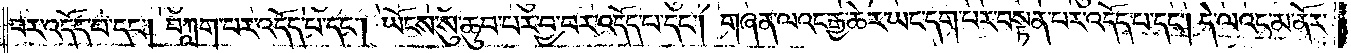བར་འདོད་པ་དང༌། བཀླག་པར་འདོད་པ་དང༌། ཡོངས་སུ་ཆུབ་པར་བྱ་བར་འདོད་པ་དང༌། གཞན་ལའང་རྒྱ་ཆེར་ཡང་དག་པར་བསྟན་པར་འདོད་པ་དང༌། དེ་ལའང་མ་ནོར་
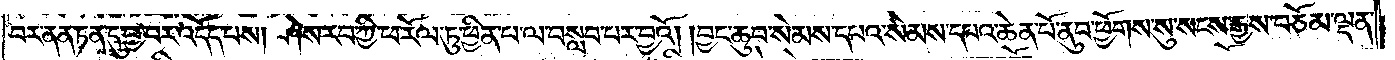བར་ནན་ཏན་དུ་བྱ་བར་འདོད་པས། ཤེས་རབ་ཀྱི་ཕ་རོལ་ཏུ་ཕྱིན་པ་ལ་བསླབ་པར་བྱའོ། །བྱང་ཆུབ་སེམས་དཔའ་སེམས་དཔའ་ཆེན་པོ་ནུབ་ཕྱོགས་སུ་སངས་རྒྱས་བཅོམ་ལྡན་
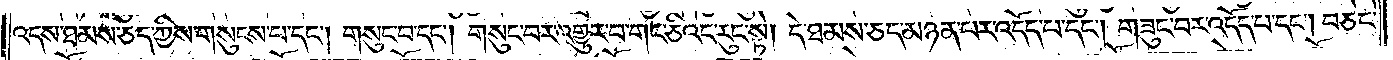འདས་ཐམས་ཅད་ཀྱིས་གསུངས་པ་དང༌། གསུང་བ་དང༌། གསུང་བར་འགྱུར་བ་གང་ཅིའང་རུང་སྟེ། དེ་ཐམས་ཅད་མཉན་པར་འདོད་པ་དང༌། གཟུང་བར་འདོད་པ་དང༌། བཅང་
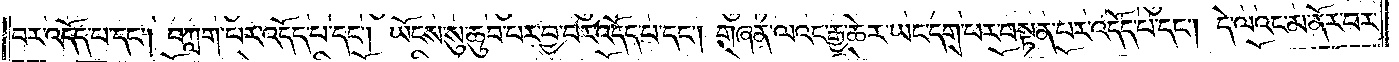བར་འདོད་པ་དང༌། བཀླག་པར་འདོད་པ་དང༌། ཡོངས་སུ་ཆུབ་པར་བྱ་བར་འདོད་པ་དང༌། གཞན་ལའང་རྒྱ་ཆེར་ཡང་དག་པར་བསྟན་པར་འདོད་པ་དང༌། དེ་ལའང་མ་ནོར་བར་
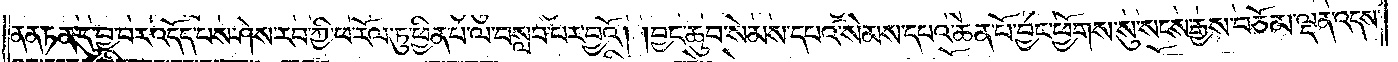ནན་ཏན་དུ་བྱ་བར་འདོད་པས་ཤེས་རབ་ཀྱི་ཕ་རོལ་ཏུ་ཕྱིན་པ་ལ་བསླབ་པར་བྱའོ། །བྱང་ཆུབ་སེམས་དཔའ་སེམས་དཔའ་ཆེན་པོ་བྱང་ཕྱོགས་སུ་སངས་རྒྱས་བཅོམ་ལྡན་འདས་
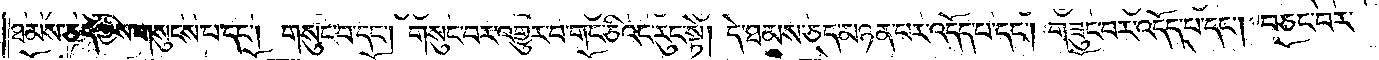ཐམས་ཅད་ཀྱིས་གསུངས་པ་དང༌། གསུང་བ་དང༌། གསུང་བར་འགྱུར་བ་གང་ཅིའང་རུང་སྟེ། དེ་ཐམས་ཅད་མཉན་པར་འདོད་པ་དང༌། གཟུང་བར་འདོད་པ་དང༌། བཅང་བར་
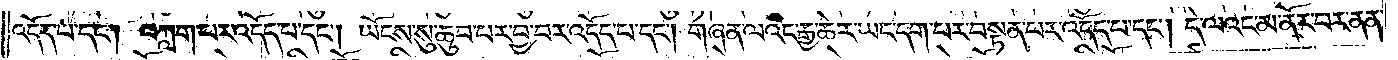འདོད་པ་དང༌། བཀླག་པར་འདོད་པ་དང༌། ཡོངས་སུ་ཆུབ་པར་བྱ་བར་འདོད་པ་དང༌། གཞན་ལའང་རྒྱ་ཆེར་ཡང་དག་པར་བསྟན་པར་འདོད་པ་དང༌། དེ་ལའང་མ་ནོར་བར་ནན་
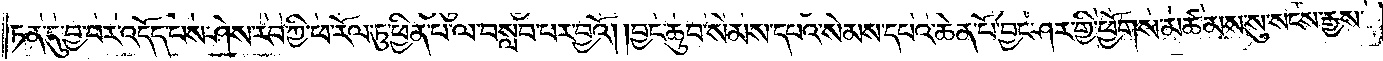ཏན་དུ་བྱ་བར་འདོད་པས་ཤེས་རབ་ཀྱི་ཕ་རོལ་ཏུ་ཕྱིན་པ་ལ་བསླབ་པར་བྱའོ། །བྱང་ཆུབ་སེམས་དཔའ་སེམས་དཔའ་ཆེན་པོ་བྱང་ཤར་གྱི་ཕྱོགས་མཚམས་སུ་སངས་རྒྱས་
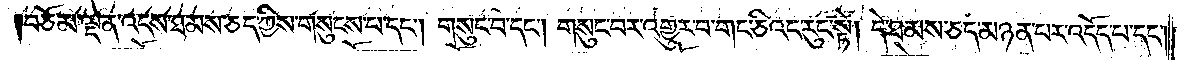བཅོམ་ལྡན་འདས་ཐམས་ཅད་ཀྱིས་གསུངས་པ་དང༌། གསུང་བ་དང༌། གསུང་བར་འགྱུར་བ་གང་ཅིའང་རུང་སྟེ། དེ་ཐམས་ཅད་མཉན་པར་འདོད་པ་དང་
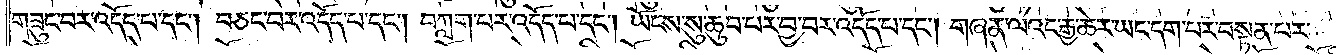གཟུང་བར་འདོད་པ་དང༌། བཅང་བར་འདོད་པ་དང༌། བཀླག་པར་འདོད་པ་དང༌། ཡོངས་སུ་ཆུབ་པར་བྱ་བར་འདོད་པ་དང༌། གཞན་ལའང་རྒྱ་ཆེར་ཡང་དག་པར་བསྟན་པར་
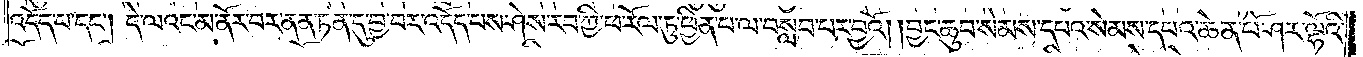འདོད་པ་དང༌། དེ་ལའང་མ་ནོར་བར་ནན་ཏན་དུ་བྱ་བར་འདོད་པས་ཤེས་རབ་ཀྱི་ཕ་རོལ་ཏུ་ཕྱིན་པ་ལ་བསླབ་པར་བྱའོ། །བྱང་ཆུབ་སེམས་དཔའ་སེམས་དཔའ་ཆེན་པོ་ཤར་ལྷོའི་
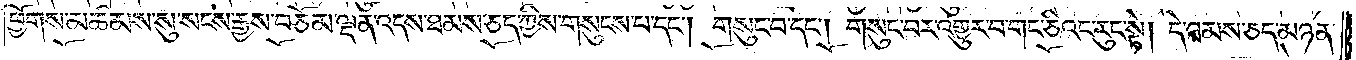ཕྱོགས་མཚམས་སུ་སངས་རྒྱས་བཅོམ་ལྡན་འདས་ཐམས་ཅད་ཀྱིས་གསུངས་པ་དང༌། གསུང་བ་དང༌། གསུང་བར་འགྱུར་བ་གང་ཅིའང་རུང་སྟེ། དེ་ཐམས་ཅད་མཉན་
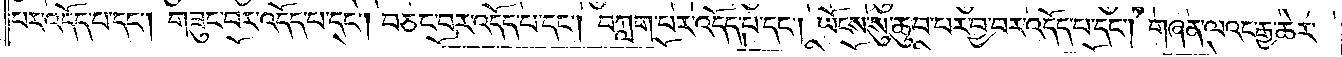པར་འདོད་པ་དང༌། གཟུང་བར་འདོད་པ་དང༌། བཅང་བར་འདོད་པ་དང༌། བཀླག་པར་འདོད་པ་དང༌། ཡོངས་སུ་ཆུབ་པར་བྱ་བར་འདོད་པ་དང༌། གཞན་ལའང་རྒྱ་ཆེར་
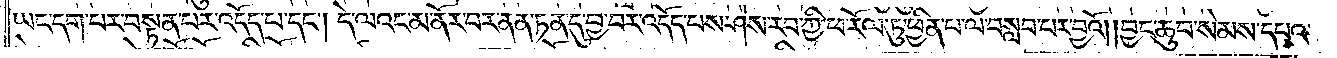ཡང་དག་པར་བསྟན་པར་འདོད་པ་དང༌། དེ་ལའང་མ་ནོར་བར་ནན་ཏན་དུ་བྱ་བར་འདོད་པས་ཤེས་རབ་ཀྱི་ཕ་རོལ་ཏུ་ཕྱིན་པ་ལ་བསླབ་པར་བྱའོ། །བྱང་ཆུབ་སེམས་དཔའ་
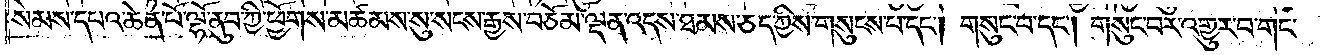སེམས་དཔའ་ཆེན་པོ་ལྷོ་ནུབ་ཀྱི་ཕྱོགས་མཚམས་སུ་སངས་རྒྱས་བཅོམ་ལྡན་འདས་ཐམས་ཅད་ཀྱིས་གསུངས་པ་དང༌། གསུང་བ་དང༌། གསུང་བར་འགྱུར་བ་གང་
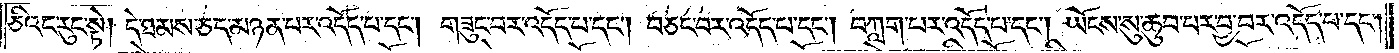ཅིའང་རུང་སྟེ། དེ་ཐམས་ཅད་མཉན་པར་འདོད་པ་དང༌། གཟུང་བར་འདོད་པ་དང༌། བཅང་བར་འདོད་པ་དང༌། བཀླག་པར་འདོད་པ་དང༌། ཡོངས་སུ་ཆུབ་པར་བྱ་བར་འདོད་པ་དང༌།
